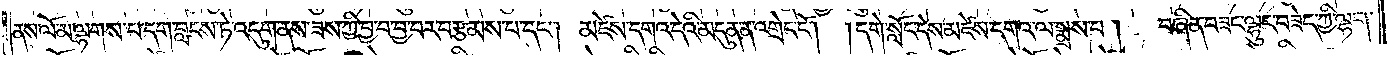ནས་ལོ་མ་ལྷགས་པ་དག་བླངས་ཏེ་འདུག་ནས་ཟས་ཀྱི་བྱ་བ་བྱ་བར་བརྩམས་པ་དང༌། མཛེས་དགའ་དེའི་མདུན་ན་འགྲེང་ངོ༌། །དགེ་སློང་དེས་མཛེས་དགའ་ལ་སྨྲས་པ།<gap>བཞིན་བཟང་ལྷུང་བཟེད་ཀྱི་ལྷག་
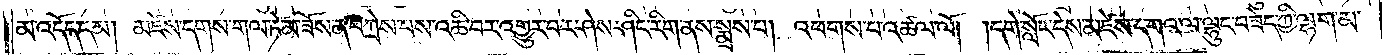མ་འདོད་དམ། མཛེས་དགས་གལ་ཏེ་མ་ཟོས་ན་བཀྲེས་པས་འཆི་བར་འགྱུར་བར་ཤེས་ཤིང་རིག་ནས་སྨྲས་པ། འཕགས་པ་འཚལ་ལོ། །དགེ་སློང་དེས་མཛེས་དགའ་ལ་ལྷུང་བཟེད་ཀྱི་ལྷག་མ་
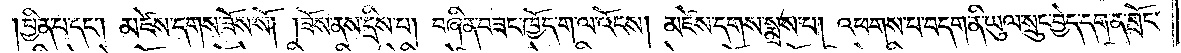བྱིན་པ་དང༌། མཛེས་དགས་ཟོས་སོ། །ཟོས་ནས་དྲིས་པ། བཞིན་བཟང་ཁྱོད་ག་ལ་འོངས། མཛེས་དགས་སྨྲས་པ། འཕགས་པ་བདག་ནི་ཡུལ་སྲུང་བྱེད་དག་ན་གྲོང་
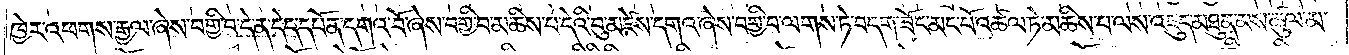ཁྱེར་འཕགས་རྒྱལ་ཞེས་བགྱི་བ་དེ་ན་དེད་དཔོན་དགའ་བོ་ཞེས་བགྱི་བ་མཆིས་པ་དེའི་བུ་མཛེས་དགའ་ཞེས་བགྱི་བ་ལགས་ཏེ་བདག་ཟོང་མང་པོ་འཚལ་ཏེ་མཆིས་པ་ལས་འཇུད་མཐུན་མས་ཚུལ་མ་
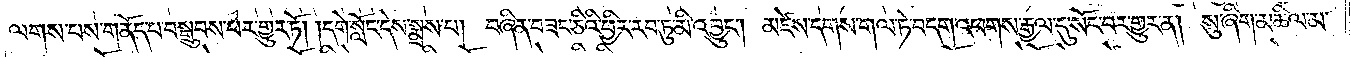ལགས་པས་གནོད་པ་བསྒྲུབས་པར་གྱུར་ཏོ། །དགེ་སློང་དེས་སྨྲས་པ། བཞིན་བཟང་ཅིའི་ཕྱིར་རབ་ཏུ་མི་འབྱུང༌། མཛེས་དགས་གལ་ཏེ་བདག་འཕགས་རྒྱལ་དུ་སོང་བར་གྱུར་ན། སུ་ཞིག་མཆིལ་མ་
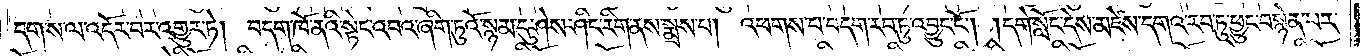དག་ས་ལ་འདོར་བར་འགྱུར་ཏེ། བདག་ཁོ་ནའི་སྟེང་འབའ་ཞིག་ཏུའོ་སྙམ་དུ་ཤེས་ཤིང་རིག་ནས་སྨྲས་པ། འཕགས་པ་བདག་རབ་ཏུ་འབྱུང་ངོ༌། །དགེ་སློང་དེས་མཛེས་དགའ་རབ་ཏུ་ཕྱུང་བསྙེན་པར་
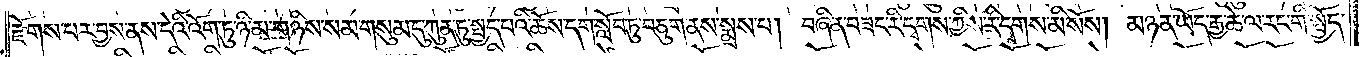རྫོགས་པར་བྱས་ནས་དེའི་འོག་ཏུ་ཉི་མ་གཉིས་སམ་གསུམ་དུ་ཀུན་ཏུ་སྤྱད་པའི་ཆོས་དག་སློབ་ཏུ་བཅུག་ནས་སྨྲས་པ། བཞིན་བཟང་རི་དྭགས་ཀྱིས་རི་དྭགས་མི་སོས། མཉན་ཡོད་རྒྱ་ཆེ་ལ་རང་གི་སྤྱོད་
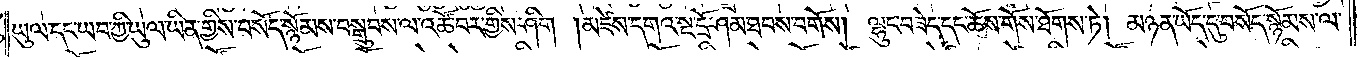ཡུལ་དང་ཡབ་ཀྱི་ཡུལ་ཡིན་གྱིས་བསོད་སྙོམས་བསྒྲུབས་ལ་འཚོ་བར་གྱིས་ཤིག །མཛེས་དགའ་སྔ་དྲོ་ཤམ་ཐབས་བགོས། ལྷུང་བཟེད་དང་ཆོས་གོས་ཐོགས་ཏེ། མཉན་ཡོད་དུ་བསོད་སྙོམས་ལ་
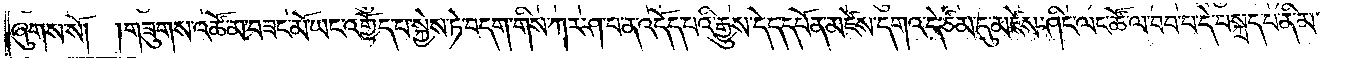ཞུགས་སོ། །གཟུགས་འཚོ་མ་བཟང་མོ་ཡང་འགྱོད་པ་སྐྱེས་ཏེ་བདག་གིས་ཀར་ཤ་པ་ན་འདོད་པའི་རྒྱུས་དེད་དཔོན་མཛེས་དགའ་དེ་ཙམ་དུ་མཛེས་ཤིང་ལང་ཚོ་ལ་བབ་པ་དེ་བསྐྲད་པ་ནི་མ་
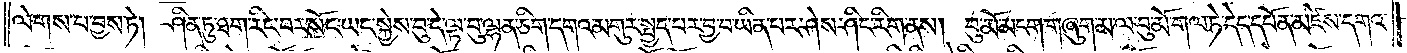ལེགས་པ་བྱས་ཏེ། ཤིན་ཏུ་ཐག་རིང་བར་སོང་ཡང་སྐྱེས་བུ་དེ་ལྟ་བུ་ལྷན་ཅིག་དགའ་མགུར་སྤྱད་པར་བྱ་བ་ཡིན་པར་ཤེས་ཤིང་རིག་ནས། བུ་མོ་མངག་གཞུག་མ་ལ་བུ་མོ་གལ་ཏེ་དེད་དཔོན་མཛེས་དགའ་
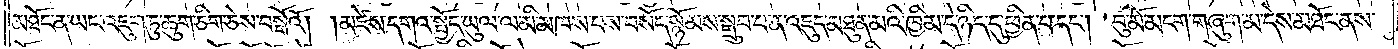མཐོང་ན་ཡང་འཇུག་ཏུ་ཆུག་ཅིག་ཅེས་བསྒོའོ། །མཛེས་དགའ་སྤྱོད་ཡུལ་ལ་མི་མཁས་པས་བསོད་སྙོམས་སྒྲུབ་པ་ན་འཇུད་མཐུན་མའི་ཁྱིམ་དེ་ཉིད་དུ་ཕྱིན་པ་དང༌། བུ་མོ་མངག་གཞུག་མ་དེས་མཐོང་ནས་
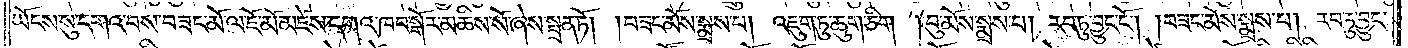ཡོངས་སུ་དགའ་བས་བཟང་མོ་ལ་ཇོ་མོ་མཛེས་དགའ་ཁབ་སྒོར་མཆིས་སོ་ཞེས་སྦྲན་ཏོ། །བཟང་མོས་སྨྲས་པ། འཇུག་ཏུ་ཆུག་ཅིག །བུ་མོས་སྨྲས་པ། རབ་ཏུ་བྱུང་ངོ༌། །བཟང་མོས་སྨྲས་པ། རབ་ཏུ་བྱུང་
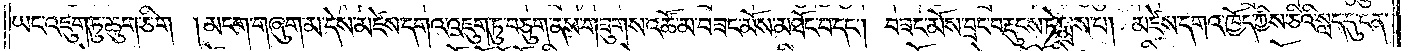ཡང་འཇུག་ཏུ་ཆུག་ཅིག །མངག་གཞུག་མ་དེས་མཛེས་དགའ་འཇུག་ཏུ་བཅུག་ནས་གཟུགས་འཚོ་མ་བཟང་མོས་མཐོང་བ་དང༌། བཟང་མོས་བྲང་བརྡུངས་ཏེ་སྨྲས་པ། མཛེས་དགའ་ཁྱོད་ཀྱིས་ཅིའི་སླད་དུ་ངན་
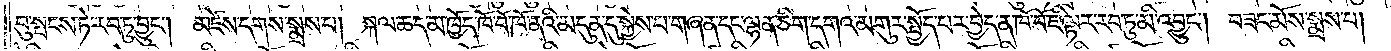བུ་སྤངས་ཏེ་རབ་ཏུ་བྱུང༌། མཛེས་དགས་སྨྲས་པ། སྐལ་ཆད་མ་ཁྱོད་ཁོ་བོ་ཁོ་ནའི་མདུན་དུ་སྐྱེས་པ་གཞན་དང་ལྷན་ཅིག་དགའ་མགུར་སྤྱོད་པར་བྱེད་ན་ཁོ་བོ་ཇི་ལྟར་རབ་ཏུ་མི་འབྱུང༌། བཟང་མོས་སྨྲས་པ།
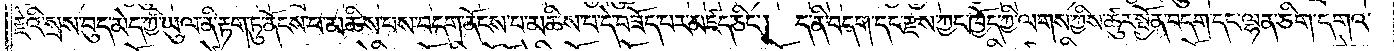རྗེའི་སྲས་བུད་མེད་ཀྱི་ཡུལ་ནི་རྟག་ཏུ་ནོངས་པ་མཆིས་པས་བདག་ནོངས་པ་མཆིས་པ་དེ་བཟོད་པར་མཛད་ཅིང༌། ད་ནི་བདག་དང་རྫས་ཀྱང་ཁྱོད་ཀྱི་ལགས་ཀྱིས་ཚུར་སྤྱོན་བདག་དང་ལྷན་ཅིག་དགའ་
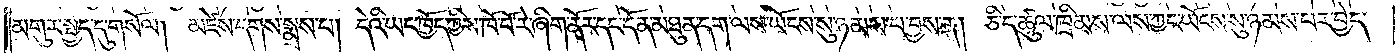མགུར་སྤྱད་དུ་གསོལ། མཛེས་དགས་སྨྲས་པ། དེའི་ཡང་ཁྱོད་ཀྱིས་ཁོ་བོ་རེ་ཞིག་ནོར་དང་དོན་མཐུན་དག་ལས་ཡོངས་སུ་ཉམས་པ་བྱས་ན། ཅི་ད་ཚུལ་ཁྲིམས་ལས་ཀྱང་ཡོངས་སུ་ཉམས་པར་བྱེད་
